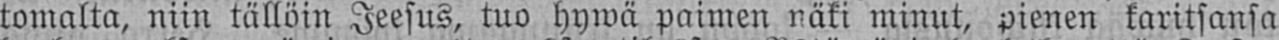tomalta, niin tällöin Jeesus, tuo hywä paimen näki minut, pienen karitsansa
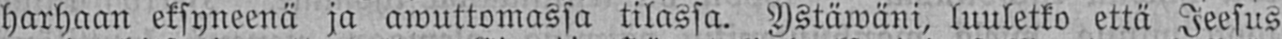harhaan eksyneenä ja awuttomassa tilassa. Ystäwäni, luuletko että Jeesus
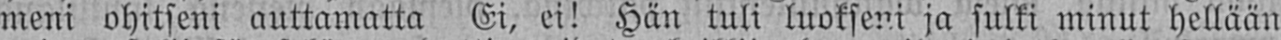meni ohitseni auttamatta Ei, ei! Hän tuli luokseni ja sulki minut hellään
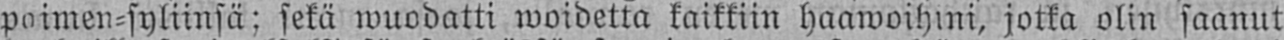paimen-syliinsä: sekä wuodatti woidetta kaikkiin haawoihini, jotka olin saanut
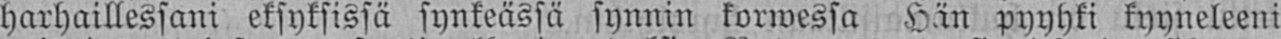harhaillessani eksyksissä synkeässä synnin korwessa Hän pyyhki kyyneleeni
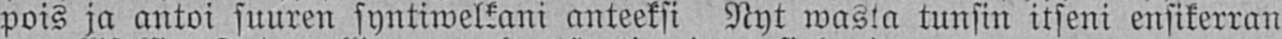pois ja antoi suuren syntiwelkani anteeksi Nyt wasta tunsin itseni ensikerran
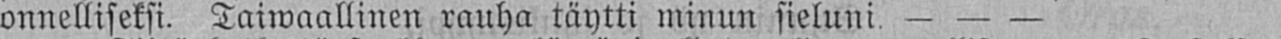onnelliseksi. Taiwaallinen rauha täytti minun sieluni — — —
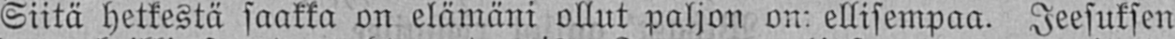Siitä hetkestä saakka on elämäni ollut paljon onnellisempaa. Jeesuksen
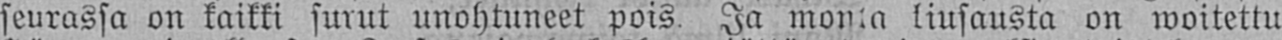seurassa on kaikki surut unohtuneet pois Ja monta kiusausta on woitettu
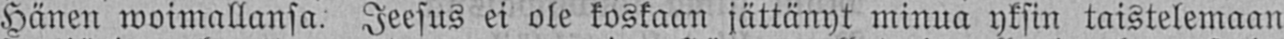Hänen woimallansa. Jeesus ei ole koskaan jättänyt minua yksin taistelemaan
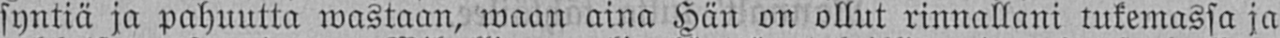syntiä ja pahuutta wastaan, waan aina Hän on ollut rinnallani tukemassa ja
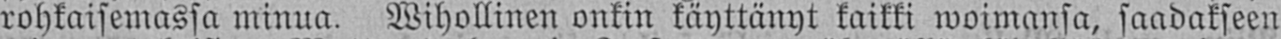rohkaisemassa minua. Wihollinen onkin käyttänyt kaikki woimansa, saadakseen
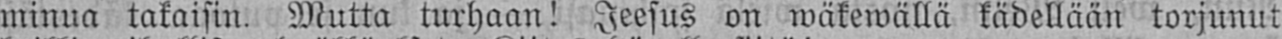minua takaisin. Mutta turhaan! Jeesus on wäkewällä kädellään torjunut
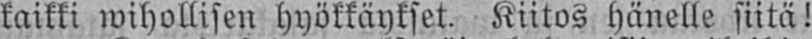kaikki wihollisen hyökkäykset. Kiitos hänelle siitä!
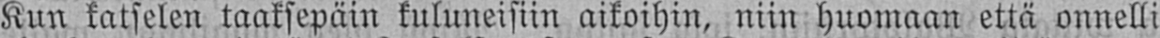Kun katselen taaksepäin kuluneisiin aikoihin, niin huomaan että onnelli-
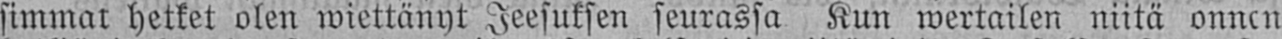simmat hetket olen wiettänyt Jeesuksen seurassa Kun wertailen niitä onnen
